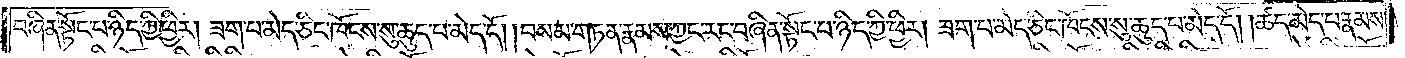བཞིན་སྟོང་པ་ཉིད་ཀྱི་ཕྱིར། ཟག་པ་མེད་ཅིང་ཁོངས་སུ་ཆུད་པ་མེད་དོ། །བསམ་གཏན་རྣམས་ཀྱང་རང་བཞིན་སྟོང་པ་ཉིད་ཀྱི་ཕྱིར། ཟག་པ་མེད་ཅིང་ཁོངས་སུ་ཆུད་པ་མེད་དོ། །ཚད་མེད་པ་རྣམས་
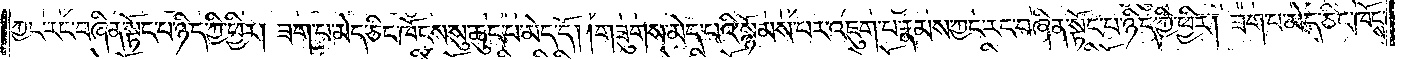ཀྱང་རང་བཞིན་སྟོང་པ་ཉིད་ཀྱི་ཕྱིར། ཟག་པ་མེད་ཅིང་ཁོངས་སུ་ཆུད་པ་མེད་དོ། །གཟུགས་མེད་པའི་སྙོམས་པར་འཇུག་པ་རྣམས་ཀྱང་རང་བཞིན་སྟོང་པ་ཉིད་ཀྱི་ཕྱིར། ཟག་པ་མེད་ཅིང་ཁོངས་
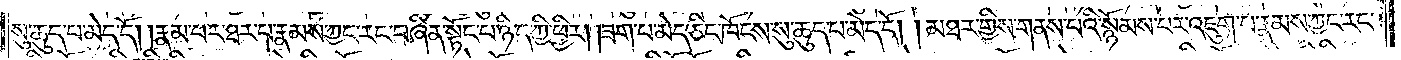སུ་ཆུད་པ་མེད་དོ། །རྣམ་པར་ཐར་པ་རྣམས་ཀྱང་རང་བཞིན་སྟོང་པ་ཉིད་ཀྱི་ཕྱིར། ཟག་པ་མེད་ཅིང་ཁོངས་སུ་ཆུད་པ་མེད་དོ། །མཐར་གྱིས་གནས་པའི་སྙོམས་པར་འཇུག་པ་རྣམས་ཀྱང་རང་
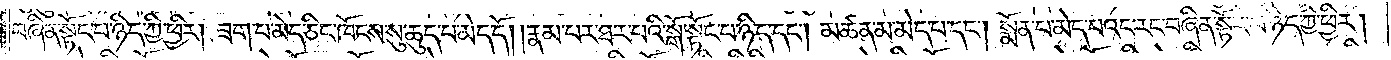བཞིན་སྟོང་པ་ཉིད་ཀྱི་ཕྱིར། ཟག་པ་མེད་ཅིང་ཁོངས་སུ་ཆུད་པ་མེད་དོ། །རྣམ་པར་ཐར་པའི་སྒོ་སྟོང་པ་ཉིད་དང༌། མཚན་མ་མེད་པ་དང་སྨོན་པ་མེད་པའང་རང་བཞིན་སྟོང་པ་ཉིད་ཀྱི་ཕྱིར།
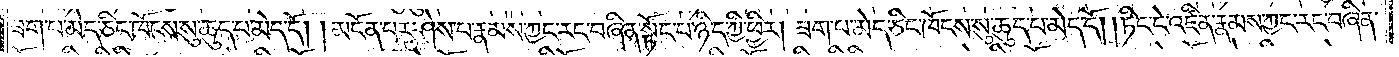ཟག་པ་མེད་ཅིང་ཁོངས་སུ་ཆུད་པ་མེད་དོ། །མངོན་པར་ཤེས་པ་རྣམས་ཀྱང་རང་བཞིན་སྟོང་པ་ཉིད་ཀྱི་ཕྱིར། ཟག་པ་མེད་ཅིང་ཁོངས་སུ་ཆུད་པ་མེད་དོ། །ཏིང་ངེ་འཛིན་རྣམས་ཀྱང་རང་བཞིན་
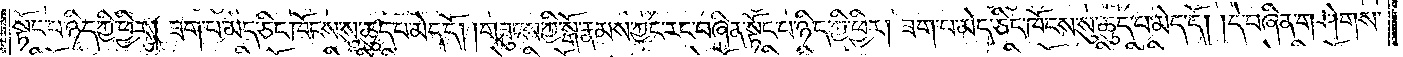སྟོང་པ་ཉིད་ཀྱི་ཕྱིར། ཟག་པ་མེད་ཅིང་ཁོངས་སུ་ཆུད་པ་མེད་དོ། །གཟུངས་ཀྱི་སྒོ་རྣམས་ཀྱང་རང་བཞིན་སྟོང་པ་ཉིད་ཀྱི་ཕྱིར། ཟག་པ་མེད་ཅིང་ཁོངས་སུ་ཆུད་པ་མེད་དོ། །དེ་བཞིན་གཤེགས་
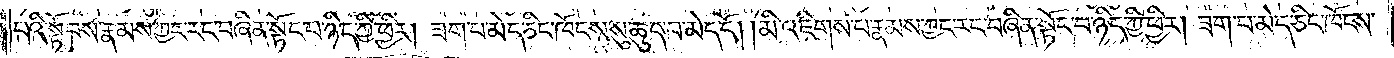པའི་སྟོབས་རྣམས་ཀྱང་རང་བཞིན་སྟོང་པ་ཉིད་ཀྱི་ཕྱིར། ཟག་པ་མེད་ཅིང་ཁོངས་སུ་ཆུད་པ་མེད་དོ། །མི་འཇིགས་པ་རྣམས་ཀྱང་རང་བཞིན་སྟོང་པ་ཉིད་ཀྱི་ཕྱིར། ཟག་པ་མེད་ཅིང་ཁོངས་
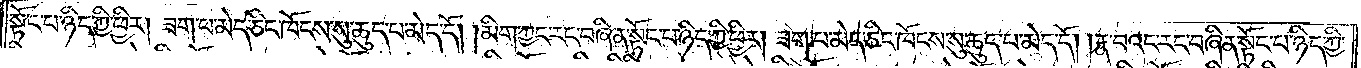སྟོང་པ་ཉིད་ཀྱི་ཕྱིར། ཟག་པ་མེད་ཅིང་ཁོངས་སུ་ཆུད་པ་མེད་དོ། །མིག་ཀྱང་རང་བཞིན་སྟོང་པ་ཉིད་ཀྱི་ཕྱིར། ཟག་པ་མེད་ཅིང་ཁོངས་སུ་ཆུད་པ་མེད་དོ། །རྣ་བའང་རང་བཞིན་སྟོང་པ་ཉིད་ཀྱི་
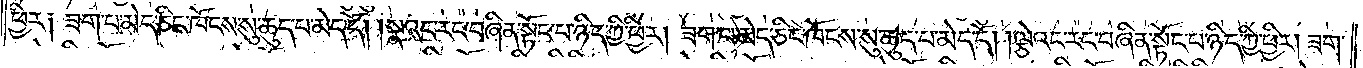ཕྱིར༑ ཟག་པ་མེད་ཅིང་ཁོངས་སུ་ཆུད་པ་མེད་དོ། །སྣའང་རང་བཞིན་སྟོང་པ་ཉིད་ཀྱི་ཕྱིར། ཟག་པ་མེད་ཅིང་ཁོངས་སུ་ཆུད་པ་མེད་དོ། །ལྕེའང་རང་བཞིན་སྟོང་པ་ཉིད་ཀྱི་ཕྱིར། ཟག་
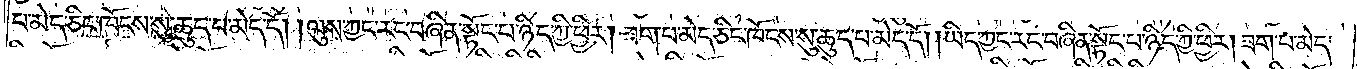པ་མེད་ཅིང་ཁོངས་སུ་ཆུད་པ་མེད་དོ། །ལུས་ཀྱང་རང་བཞིན་སྟོང་པ་ཉིད་ཀྱི་ཕྱིར། ཟག་པ་མེད་ཅིང་ཁོངས་སུ་ཆུད་པ་མེད་དོ། །ཡིད་ཀྱང་རང་བཞིན་སྟོང་པ་ཉིད་ཀྱི་ཕྱིར། ཟག་པ་མེད་
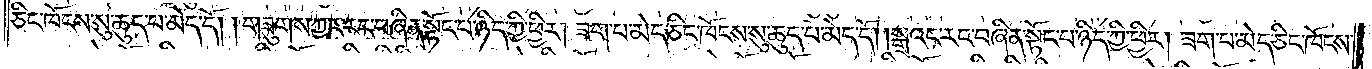ཅིང་ཁོངས་སུ་ཆུད་པ་མེད་དོ། །གཟུགས་ཀྱང་རང་བཞིན་སྟོང་པ་ཉིད་ཀྱི་ཕྱིར། ཟག་པ་མེད་ཅིང་ཁོངས་སུ་ཆུད་པ་མེད་དོ། །སྒྲའང་རང་བཞིན་སྟོང་པ་ཉིད་ཀྱི་ཕྱིར། ཟག་པ་མེད་ཅིང་ཁོངས་
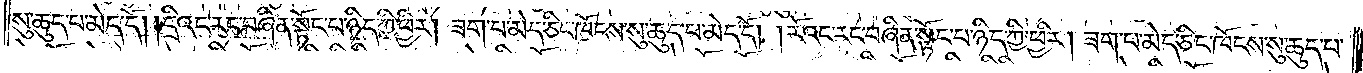སུ་ཆུད་པ་མེད་དོ། །དྲིའང་རང་བཞིན་སྟོང་པ་ཉིད་ཀྱི་ཕྱིར། ཟག་པ་མེད་ཅིང་ཁོངས་སུ་ཆུད་པ་མེད་དོ། །རོའང་རང་བཞིན་སྟོང་པ་ཉིད་ཀྱི་ཕྱིར། ཟག་པ་མེད་ཅིང་ཁོངས་སུ་ཆུད་པ་
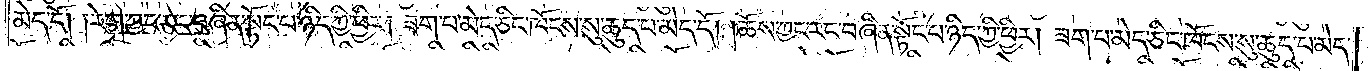མེད་དོ། །རེག་ཀྱང་རང་བཞིན་སྟོང་པ་ཉིད་ཀྱི་ཕྱིར། ཟག་པ་མེད་ཅིང་ཁོངས་སུ་ཆུད་པ་མེད་དོ། །ཆོས་ཀྱང་རང་བཞིན་སྟོང་པ་ཉིད་ཀྱི་ཕྱིར། ཟག་པ་མེད་ཅིང་ཁོངས་སུ་ཆུད་པ་མེད་
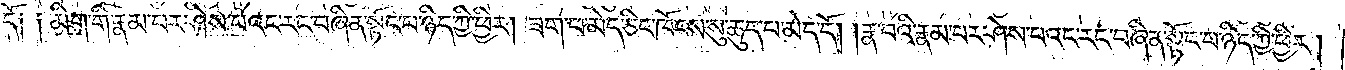དོ། །མིག་གི་རྣམ་པར་ཤེས་པའང་རང་བཞིན་སྟོང་པ་ཉིད་ཀྱི་ཕྱིར། ཟག་པ་མེད་ཅིང་ཁོངས་སུ་ཆུད་པ་མེད་དོ། །རྣ་བའི་རྣམ་པར་ཤེས་པའང་རང་བཞིན་སྟོང་པ་ཉིད་ཀྱི་ཕྱིར།
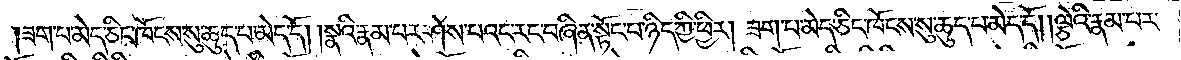ཟག་པ་མེད་ཅིང་ཁོངས་སུ་ཆུད་པ་མེད་དོ། །སྣའི་རྣམ་པར་ཤེས་པའང་རང་བཞིན་སྟོང་པ་ཉིད་ཀྱི་ཕྱིར། ཟག་པ་མེད་ཅིང་ཁོངས་སུ་ཆུད་པ་མེད་དོ། །ལྕེའི་རྣམ་པར་
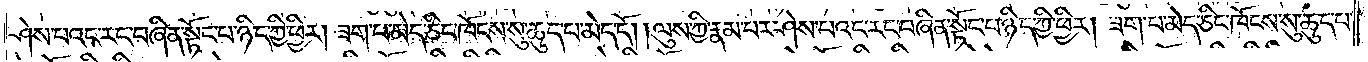ཤེས་པའང་རང་བཞིན་སྟོང་པ་ཉིད་ཀྱི་ཕྱིར། ཟག་པ་མེད་ཅིང་ཁོངས་སུ་ཆུད་པ་མེད་དོ། །ལུས་ཀྱི་རྣམ་པར་ཤེས་པའང་རང་བཞིན་སྟོང་པ་ཉིད་ཀྱི་ཕྱིར། ཟག་པ་མེད་ཅིང་ཁོངས་སུ་ཆུད་པ་
